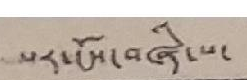པར་ངོས་བཞི་པ་
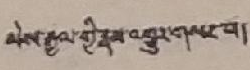མེས་རྒྱལ་གྱི་རྣམ་འགྱུར་གསར་པ།
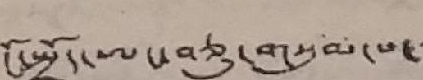ངོ་སྤྲོད་ཨང་བཅུ་གསུམ་པ་
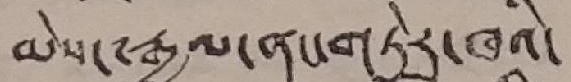མེས་༸རྒྱལ་ནང་གཏེར་ཁའི་
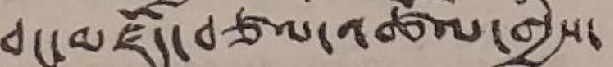བང་མཛོད་བཙལ་འཚོལ་གྱིས་
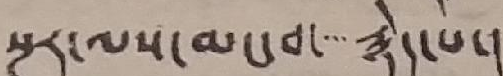སྔར་ལས་མང་བ་་་་རྙེད་པ་།
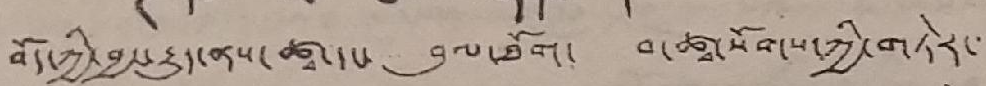བོད་ཀྱི་བྱ་རྒྱུད་ནས་ཚྭ་དང་ བུལ་ཐོག་ བ་ཚྭ་སོགས་ཀྱི་གཏེར་་་་
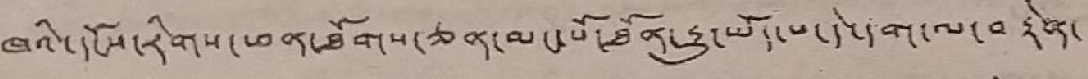ཁའི་དངོས་རིགས་ཕན་ཐོགས་ཅན་མང་པོ་ཐོན་རྒྱུ་ཡོད་པ་དེ་དག་ལ་བརྟེན་
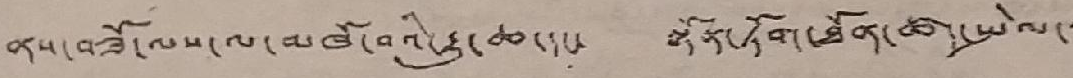ནས་བཟོ་ལས་མཁོ་བའི་རྒྱུ་ཆ་དང་ སྟོན་ཏོག་ཐོན་ཚད་སྤེལ་་་
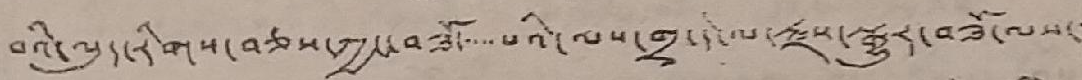བའི་ལུད་རིགས་བཅས་ཀྱང་བཟོ་་་་་པའི་ལས་གྲྭ་དེ་ལ་རྫས་སྒྱུར་བཟོ་ལས་་་
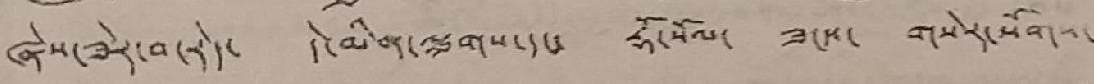ཞེས་ཟེར་བ་རེད་ དེ་མིན་ལྕགས་དང་ རྡོ་སོལ་ ཟངས་ གསེར་སོགས་
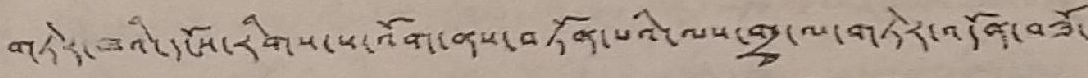གཏེར་ཟའི་དངོས་རིགས་ས་འོག་ནས་བཏོན་པའི་ལས་གྲྭ་ལ་གཏེར་འདོན་བཟོ་
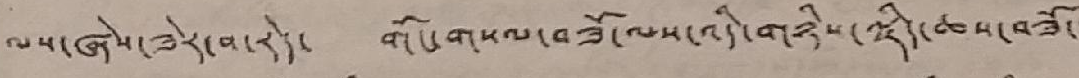ལས་ཞེས་ཟེར་བ་རེད་ གོང་གསལ་བཟོ་ལས་འདི་གཉིས་ལྗིད་ཆས་བཟོ་་
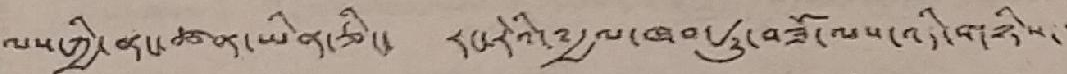ལས་ཀྱི་ནང་ཚན་ཡིན་ཅིང་ རང་རེའི་༸རྒྱལ་ཁབ་ཏུ་བཟོ་ལས་འདི་གཉིས་་་
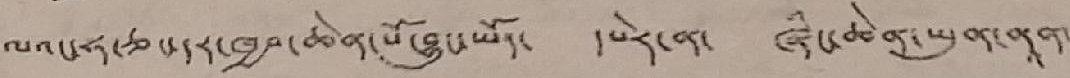ལའང་ཧ་ཅང་དར་ཁྱབ་ཆེན་པོ་བྱུང་ཡོད་ དཔེར་ན་ ཞིང་ཆེན་ཡུན་ནཱན་་
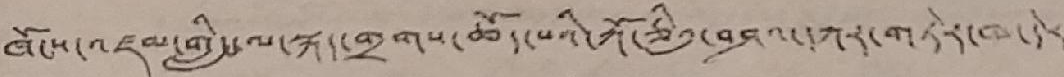ཁོངས་འཛམ་གླིང་ལ་སྐད་གྲགས་ཆོད་པའི་ཀོ་ཅིའུ་བཤའ་དཀར་གཏེར་ཁ་དེར་
